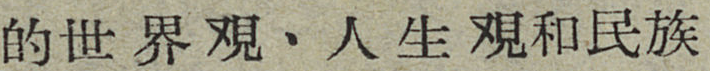的世界覌、人生覌和民族
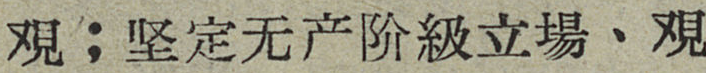覌；鉴定无产阶級立場、覌
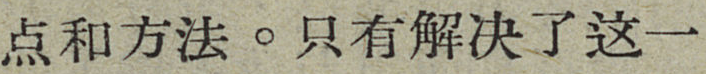点和方法。只有解决了这一
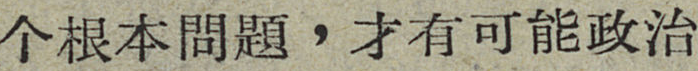个根本問題，才有可能政治
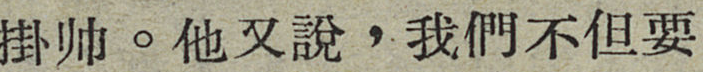掛帅。他又說，我們不但要
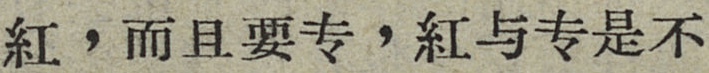紅，而且要专，紅与专是不
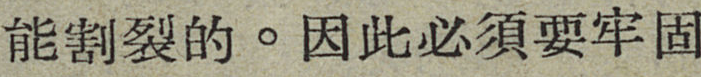能割裂的。因此必須要牢固
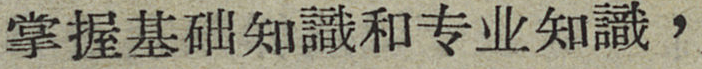掌握基础知識和专业知識，
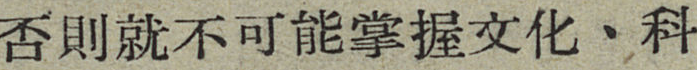否則就不可能掌握文化、科
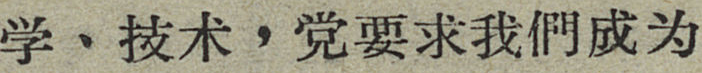学、技术，党要求我們成为
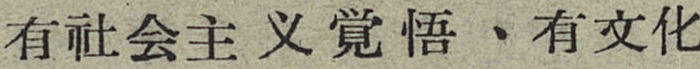有社会主义覚悟、有文化
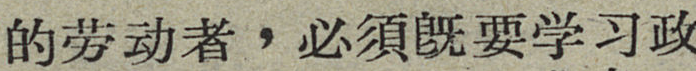的劳动者，必須旣要学习政
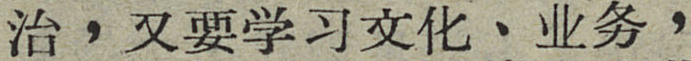治，又要学习文化、业务，
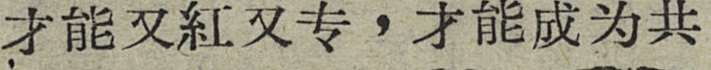才能又紅又专，才能成为共
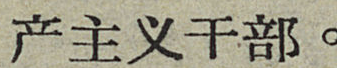产主义干部。
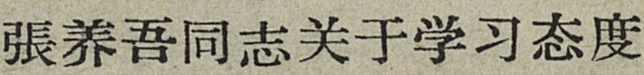張养吾同志关于学习态度
